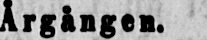Årgången.
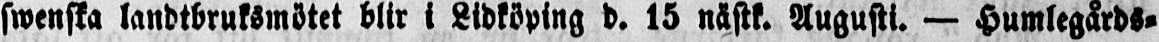swenska landtbruksmötet blir i Lidköping d. 15 nästk. Augusti. — Humlegårds-
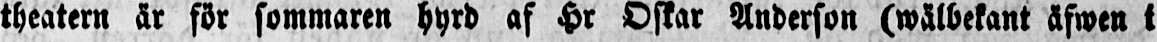theatern är för sommaren hyrd af Hr Oskar Anderson (wälbekant äfwen i
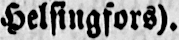Helsingfors).
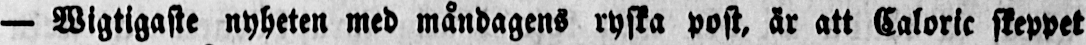— Wigtigaste nyheten med måndagens ryska post, är att Caloric skeppet
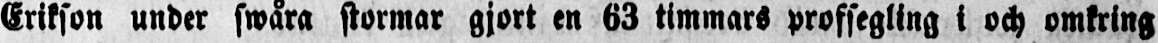Erikson under swåra stormar gjort en 63 timmars profsegling i och omkring
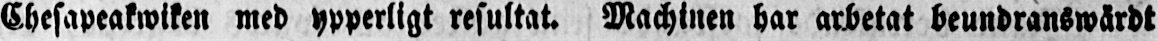Chesapeakwiken med ypperligt resultat. Machinen har arbetat beundranswärdt
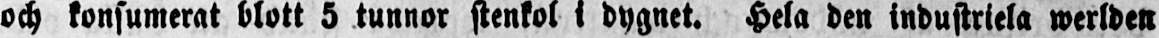och konsumerat blott 5 tunnor stenkol i dygnet. Hela den industriela werlden
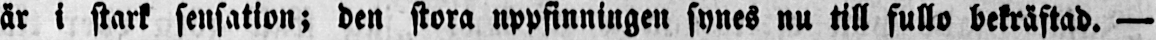är i stark sensation; den stora uppfinningen synes nu till fullo bekräftad. —
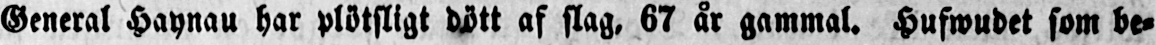General Haynau har plötsligt dött af slag, 67 år gammal. Hufwudet som be-
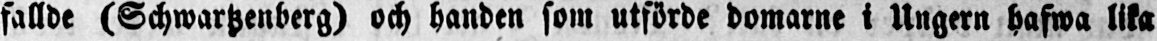fallde (Schwartzenberg) och handen som utförde domarne i Ungern hafwa lika
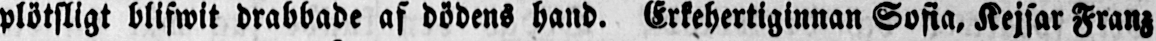plötsligt blifwit drabbade af dödens hand. Erkehertiginnan Sofia, Kejsar Franz
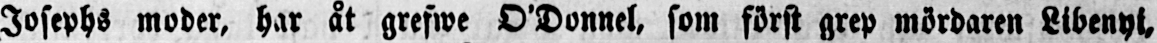Josephs moder, har åt grefwe O'Donnel, som först grep mördaren Libenyi,
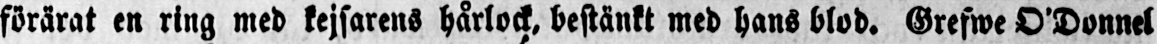förärat en ring med kejsarens hårlock, bestänkt med hans blod. Grefwe O'Donnel
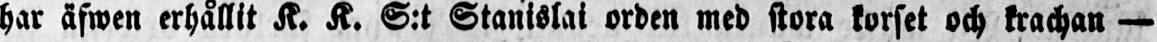har äfwen erhållit K. K. S:t Stanislai orden med stora korset och krachan —
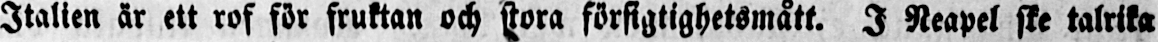Italien är ett rof för fruktan och stora försigtighetsmått. I Neapel ske talrika
